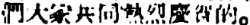們大家共同熱烈慶賀的。
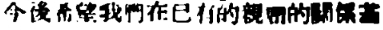今後希望我們在已有的親密的關係基
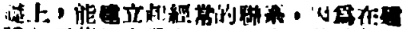礎上，能建立起經常的聯系，因爲在建
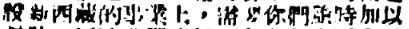設新西藏的事業上，需要你們隨時加以
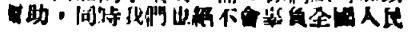幫助，同時我們也絕不會辜負全國人民
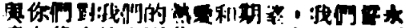與你們對我們的熱愛和期望，我們誓永
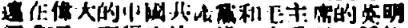遠在偉大的中國共產黨和毛主席的英明
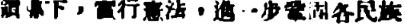領導下，實行憲法，進一步鞏固各民族
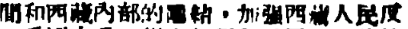間和西藏內部的團結，加強西藏人民反
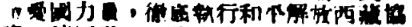帝愛國力量，徹底執行和平解放西藏協
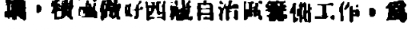議，積極做好西藏自治區籌備工作，爲
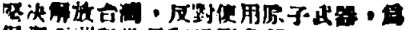堅決解放台灣，反對使用原子武器，爲
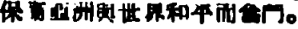保衛亞洲與世界和平而奮鬥。
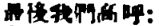最後我們高呼：
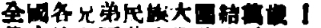全國各兄弟民族大團結萬歲！
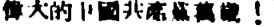偉大的中國共產黨萬歲！
